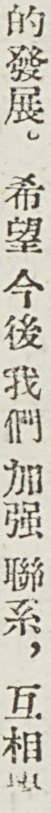的發展。希望今後我們加強聯系，互相學
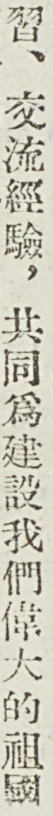習、交流經驗，共同爲建設我們偉大的祖國
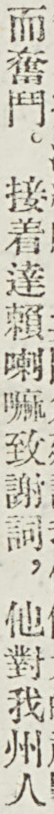而奮鬥。接着達賴喇嘛致謝詞，他對我州人
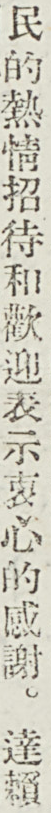民的熱情招待和歡迎表示衷心的感謝。達賴
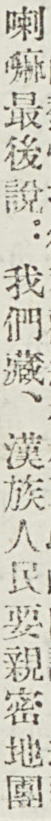喇嘛最後說：我們藏、漢族人民要親密地團
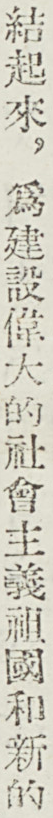結起來，爲建設偉大的社會主義祖國和新的
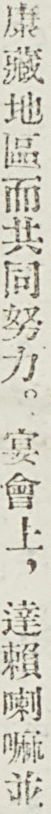康藏地區而共同努力。宴會上，達賴喇嘛並
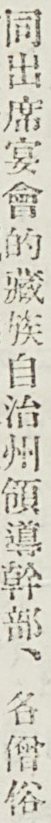同出席宴會的藏族自治州領導幹部、各僧俗
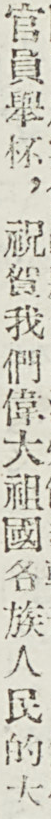官員舉杯，祝賀我們偉大祖國各族人民的大
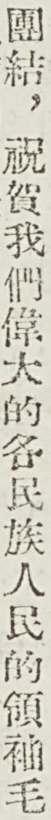團結，祝賀我們偉大的各民族人民的領袖毛
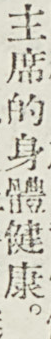主席的身體健康。
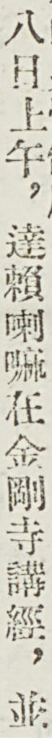八日上午，達賴喇嘛在金剛寺講經，並
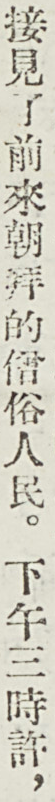接見了前來朝拜的僧俗人民。下午三時許，
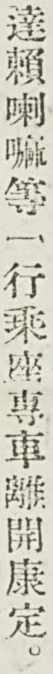達賴喇嘛等一行乘座專車離開康定。
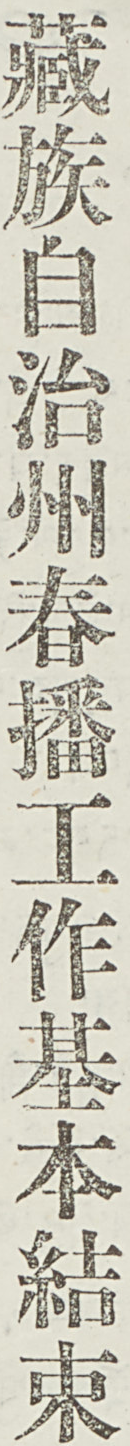藏族自治州春播工作基本結束
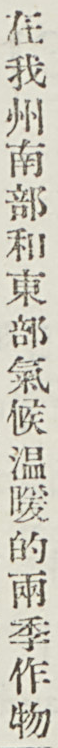在我州南部和東部氣候溫暖的兩季作物
